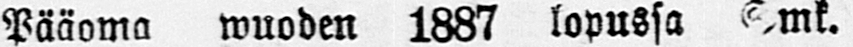Pääoma wuoden 1887 lopussa Smk.
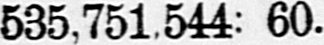535,751 544: 60.
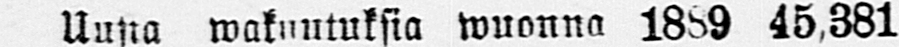Uusia wakuutuksia wuonna 1889 45,381
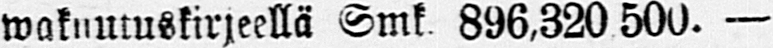wakuutuskirjeelä Smk. 896,320,500. —
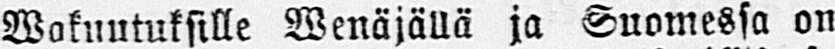Wakuutuksille Wenäjällä ja Suomessa on
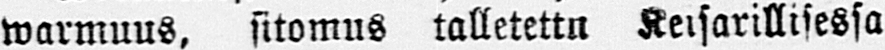warmuus, sitomus talletettu Keisarillisessa
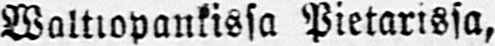Waltiopankissa Pietarissa,
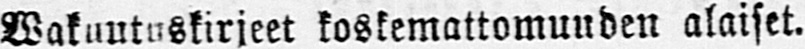Wakuutuskirjeet koskemattomuuden alaiset.
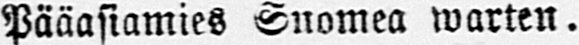Pääasiamies Suomea warten.
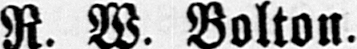R. W. Bolton.
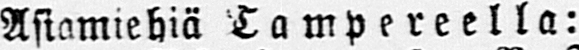Asiamiehiä Tampereella:
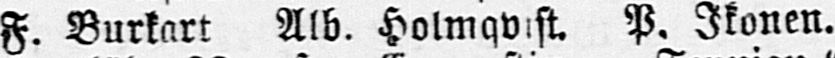F. Burkart Alb. Holmqvist. P. Ikonen.
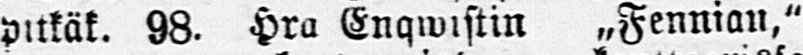pitkäk. 98. Hra Enqwistin „Fennian."
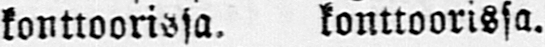konttoorissa, konttoorissa.
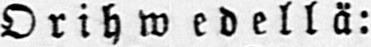Orihwedellä:
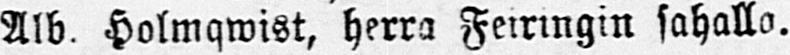Alb. Holmqwist, herra Feiringin sahalla.
